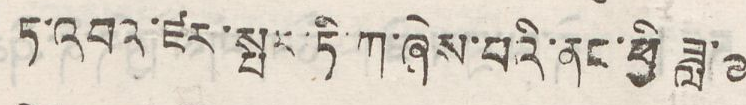ཏ་འབའ་ཛར་སྤར་ཏི་ཀ་ཞེས་པའི་ནང་ཕྱི ཟླ་༩
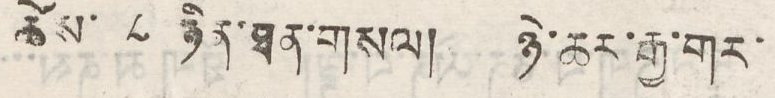ཚེས་ ༨ ཉིན་ཐན་གསལ། ཉེ་ཆར་རྒྱ་གར་
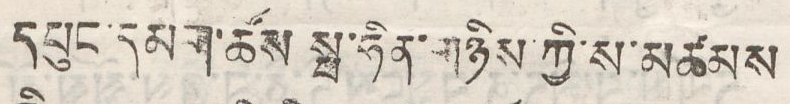དཔུང་དམག་ཚོས སྤ་ཧིན་གཉིས་ཀྱི་ས་མཚམས
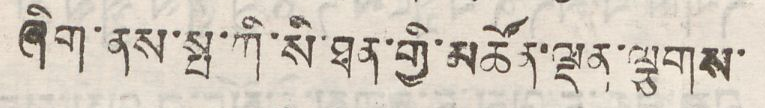ཞིག་ནས་སྤ་ཀི་སི་ཐན་གྱི་མཚོན་ལྡན་ལྕགས་
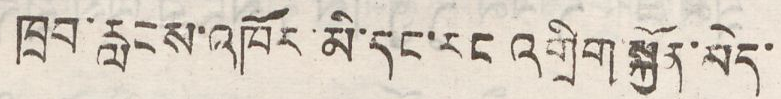ཁྲབ་རླངས་འཁོར་མི་དང་རང་འགྲིག་སྐྱོན་མེད་
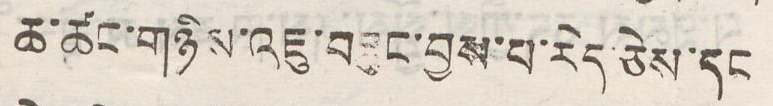ཆ་ཚང་གཉིས་འཇུ་བཟུང་བྱས་པ་རེད་ཅེས་དང
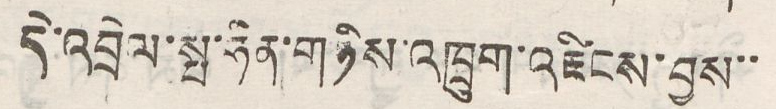དེ་འབྲེལ་སྤ་ཧིན་གཉིས་འཁྲུག་འཛིངས་བྱས་་
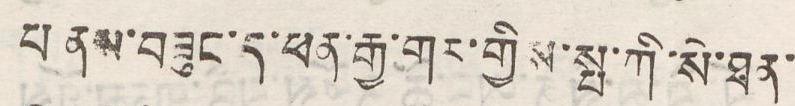པ ནས་བཟུང་ད་ཕན་རྒྱ་གར་གྱིས་སྤ་ཀི་སེ་ཐན་
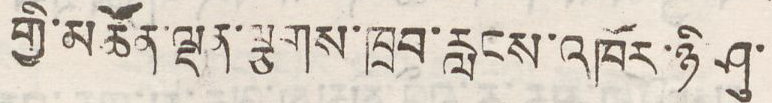གྱི་མཚོན་ལྡན་ལྕགས་ཁྲབ་རླངས་འཁོར་ཉི་ཤུ་
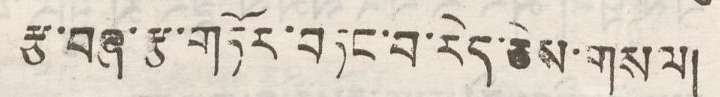རྩ་བཞ་རྩ་གཏོར་བཏང་བ་རེད་ཅེས་གསལ།
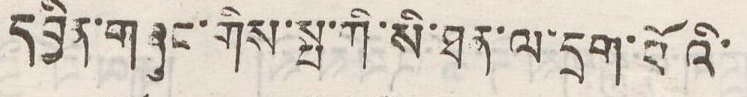དབྱིན་གཞུང་གིས་སྤ་ཀི་སི་ཐན་ལ་དེག་པོའི་
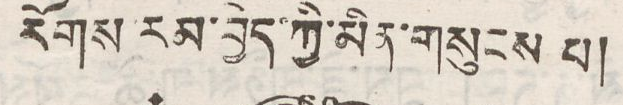རོགས རམ་བྱེད་ཀྱི་མིན་གསུངས པ།
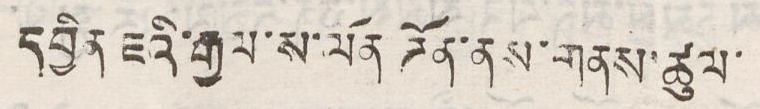དབྱིན ཇིའི་རྒྱལ་ས་ལོན ཌོན་ནས་གནས་ཚུལ་
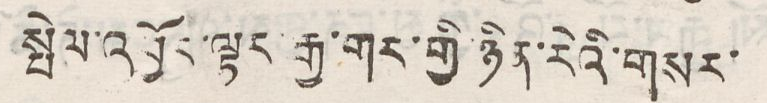སྤེལ་འབྱོར་ལྟར་རྒྱ་གར་གྱི་ཉིན་རེའི་གསར་
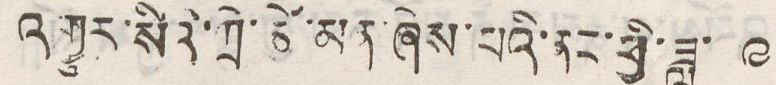འགྱུར་སིའི་ཀྲེ་ཚེ་མན་ཞེས་པའི་ནང་ཕྱི་ཟླ་ ༩
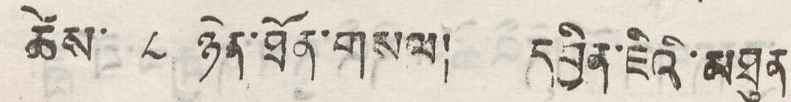ཚེས་ ༨ ཉིན་ཐོན་གསལ། དབྱིན་ཇིའི་མཐུན
